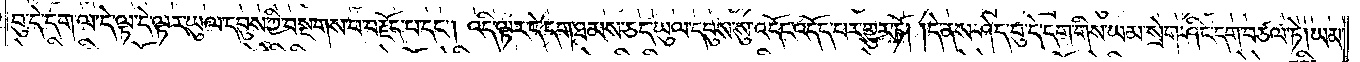བུ་དེ་དག་ལ་དེ་ལྟ་དེ་ལྟར་ཡུལ་དབུས་ཀྱི་བསྔགས་པ་བརྗོད་པ་དང༌། འདི་ལྟར་དེ་དག་ཐམས་ཅད་ཡུལ་དབུས་སུ་འདོང་འདོད་པར་གྱུར་ཏོ། །དེ་ནས་ཤེད་བུ་དེ་དག་གིས་ཡམ་སྲེག་ཤིང་དག་བཙལ་ཏེ། ཡམ་
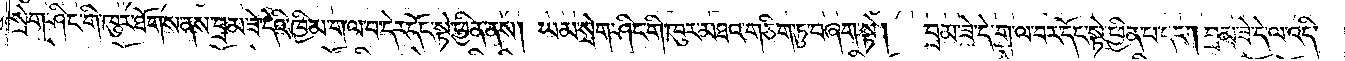སྲེག་ཤིང་གི་ཁུར་ཐོགས་ནས་བྲམ་ཟེ་དེའི་ཁྱིམ་གལ་བ་དེར་དོང་སྟེ་ཕྱིན་ནས། ཡམ་སྲེག་ཤིང་གི་ཁུར་མཐའ་གཅིག་ཏུ་བཞག་སྟེ།  བྲམ་ཟེ་དེ་ག་ལ་བར་དོང་སྟེ་ཕྱིན་པ་དང༌། བྲམ་ཟེ་དེ་ལ་འདི་
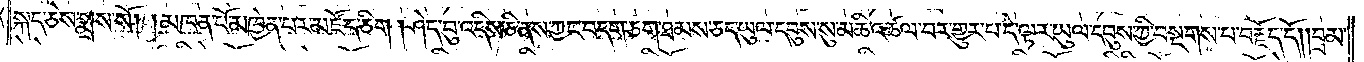སྐད་ཅེས་སྨྲས་སོ། །མཁན་པོ་མཁྱེན་པར་མཛོད་ཅིག །ཤེད་བུ་འདིས་ཅི་ནས་ཀྱང་བདག་ཅག་ཐམས་ཅད་ཡུལ་དབུས་སུ་མཆི་འཚལ་བར་གྱུར་པ་དེ་ལྟར་ཡུལ་དབུས་ཀྱི་བསྔགས་པ་བརྗོད་དོ། །བྲམ་
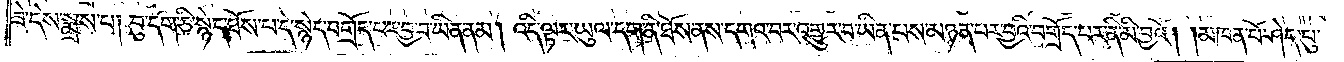ཟེ་དེས་སྨྲས་པ། བུ་དག་ཅི་སྙེད་ཐོས་པ་དེ་སྙེད་བགྲོད་པར་བྱ་བ་ཡིན་ནམ། འདི་ལྟར་ཡུལ་དག་ནི་ཐོས་ནས་དགའ་བར་འགྱུར་བ་ཡིན་པས་མཉན་པར་བྱའི་བགྲོད་པར་ནི་མི་བྱའོ། །མཁན་པོ་ཤེད་བུ་
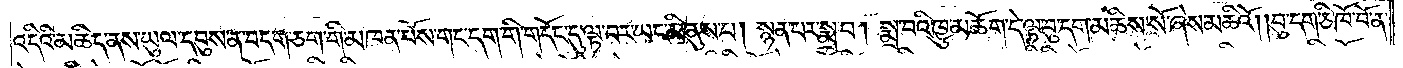འདིའི་མཆིད་ནས་ཡུལ་དབུས་ན་བདག་ཅག་གི་མཁན་པོས་གང་དག་གི་གདོང་དུ་ལྟ་བར་ཡང་མི་ནུས་པ། སྙན་པར་སྨྲ་བ། སྨྲ་བའི་ཁྱུ་མཆོག་དེ་ལྟ་བུ་དག་མཆིས་སོ་ཞེས་མཆིའོ། །བུ་དག་ཅི་ཁོ་བོ་ན་
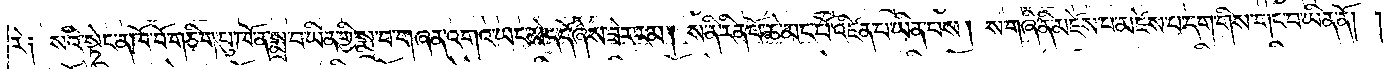རེ༑ སའི་སྟེང་ན་ཁོ་བོ་གཅིག་པུ་ཁོ་ན་སྨྲ་བ་ཡིན་གྱི་སྨྲ་བ་གཞན་འགའ་ཡང་མེད་དོ་ཞེས་ཟེར་རམ། ས་ནི་རིན་པོ་ཆེ་མང་པོ་འཛིན་པ་ཡིན་པས། ས་གཞི་ནི་མཛེས་པ་མཛེས་པ་དག་གིས་གང་བ་ཡིན་ནོ། །
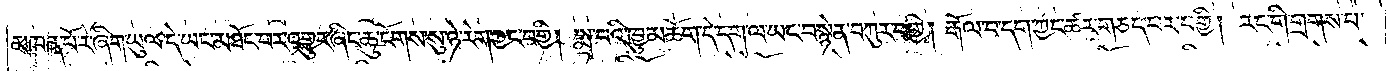མཁན་པོ་རེ་ཞིག་ཡུལ་དེ་ཡང་མཐོང་བར་འགྱུར་ཞིང་ཆུ་ངོགས་སུ་ཉེ་རེག་ཀྱང་བགྱི། སྨྲ་བའི་ཁྱུ་མཆོག་དེ་དག་ལ་ཡང་བསྙེན་བཀུར་བགྱི། རྒོལ་བ་དག་ཀྱང་ཚར་གཅད་པར་བགྱི། རང་གི་གྲགས་པ་
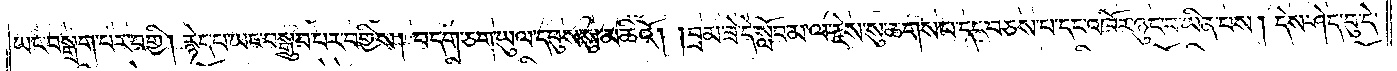ཡང་བསྒྲག་པར་བགྱི། རྙེད་པ་ཡང་བསྒྲུབ་པར་བགྱིས། བདག་ཅག་ཡུལ་དབུས་སུ་མཆིའོ། །བྲམ་ཟེ་དེ་སློབ་མ་ལ་རྗེས་སུ་ཆགས་པ་དང་བཅས་པ་དང་འཁོར་ཉུང་བ་ཡིན་པས། དེས་ཤེད་བུ་དེ་
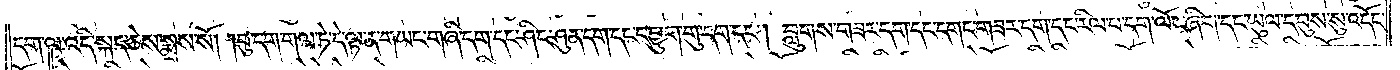དག་ལ་འདི་སྐད་ཅེས་སྨྲས་སོ། །བུ་དག་གལ་ཏེ་དེ་ལྟ་ན་གཡང་གཞི་དག་དང་ཤིང་ཤུན་དག་དང་དབྱུག་གུ་དག་དང༌། བླུགས་གཟར་དག་དང་དགང་གཟར་དག་དང་རིལ་པ་དག་ལོང་ཞིག་དང་ཡུལ་དབུས་སུ་འདོང་
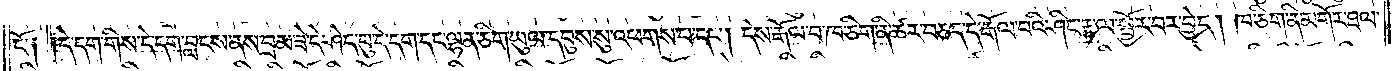ངོ༑ ༑དེ་དག་གིས་དེ་དག་བླངས་ནས་བྲམ་ཟེ་དེ་ཤེད་བུ་དེ་དག་དང་ལྷན་ཅིག་ཡུལ་དབུས་སུ་འཕགས་པ་དང༌། དེས་རྒོལ་བ་ཁ་ཅིག་ནི་ཚར་བཅད་དེ་རྒོལ་བའི་ཤིང་རྟ་ལ་སྦྱོར་བར་བྱེད། ཁ་ཅིག་ནི་མགོར་ཐལ་
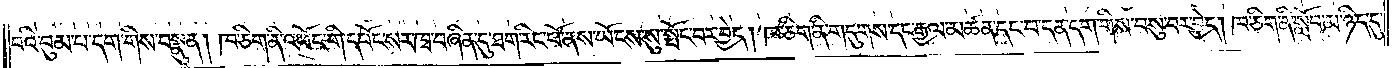བའི་བུམ་པ་དག་གིས་བསྣུན། ཁ་ཅིག་ནི་འཕོང་གི་དཔོང་སར་ཁྭ་བཞིན་དུ་ཐག་རིང་པོ་ནས་ཡོངས་སུ་སྤོང་བར་བྱེད། ཁ་ཅིག་ནི་གདུགས་དང་རྒྱལ་མཚན་དང་བ་དན་དག་གིས་བསུ་བར་བྱེད། ཁ་ཅིག་ནི་སློབ་མ་ཉིད་དུ་
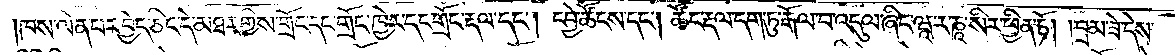ཁས་ལེན་པར་བྱེད་ཅིང་དེ་མཐར་གྱིས་གྲོང་དང་གྲོང་ཁྱེར་དང་གྲོང་རྡལ་དང༌། དབྱེ་ཚོངས་དང༌། ཚོང་རྡལ་དག་ཏུ་རྒོལ་བ་འདུལ་ཞིང་ཝཱ་ར་ཎཱ་སིར་ཕྱིན་ཏོ། །བྲམ་ཟེ་དེས་
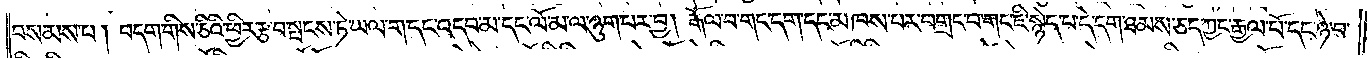བསམས་པ། བདག་གིས་ཅིའི་ཕྱིར་རྩ་བ་སྤངས་ཏེ་ཡལ་ག་དང་འདབ་མ་དང་ལོ་མ་ལ་ཉུག་པར་བྱ། རྒོལ་བ་གང་དག་དང་མཁས་པར་བགྲང་བ་གང་ཇི་སྙེད་པ་དེ་དག་ཐམས་ཅད་ཀྱང་རྒྱལ་པོ་དང་ཉེ་བ་
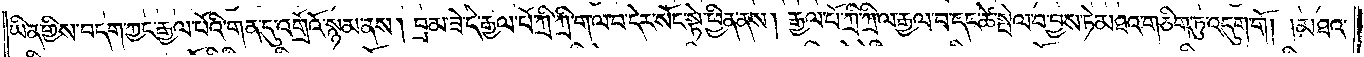ཡིན་གྱིས་བདག་ཀྱང་རྒྱལ་པོའི་གན་དུ་འགྲོའོ་སྙམ་ནས། བྲམ་ཟེ་དེ་རྒྱལ་པོ་ཀྲི་ཀྲི་ག་ལ་བ་དེར་སོང་སྟེ་ཕྱིན་ནས། རྒྱལ་པོ་ཀྲི་ཀྲི་ལ་རྒྱལ་བ་དང་ཚེ་སྤེལ་བ་བྱས་ཏེ་མཐའ་གཅིག་ཏུ་འདུག་གོ། །མཐའ་
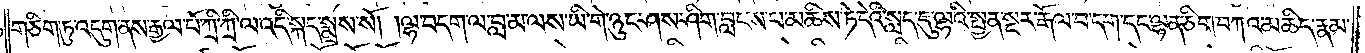གཅིག་ཏུ་འདུག་ནས་རྒྱལ་པོ་ཀྲི་ཀྲི་ལ་འདི་སྐད་ཅེས་སྨྲས་སོ། །ལྷ་བདག་ལ་བླ་མ་ལས་ཡི་གེ་ཉུང་ཤས་ཤིག་བླངས་པ་མཆིས་ཏེ་དེའི་སླད་དུ་ལྷའི་སྤྱན་སྔར་རྒོལ་བ་དག་དང་ལྷན་ཅིག་བཀའ་མཆིད་རྣམ་
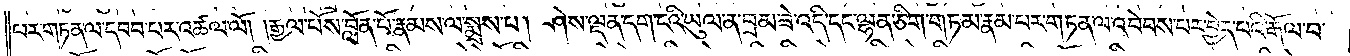པར་གཏན་ལ་དབབ་པར་འཚལ་ལོ། །རྒྱལ་པོས་བློན་པོ་རྣམས་ལ་སྨྲས་པ། ཤེས་ལྡན་དག་ངའི་ཡུལ་ན་བྲམ་ཟེ་འདི་དང་ལྷན་ཅིག་གཏམ་རྣམ་པར་གཏན་ལ་འབེབས་པར་བྱེད་པའི་རྒོལ་བ་
